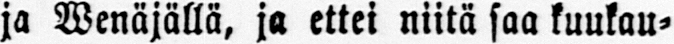ja Wenäjällä, ja ettei niitä saa kuukau-
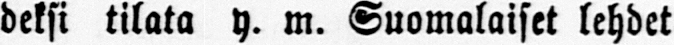deksi tilata y. m. Suomalaiset lehdet
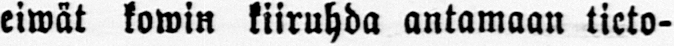eiwät kowin kiiruhda antamaan tieto-
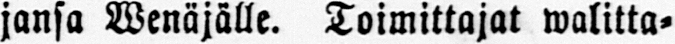jansa Wenäjälle. Toimittajat walitta-
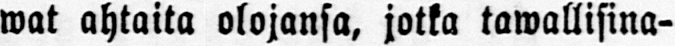wat ahtaita olojansa, jotka tawallisina-
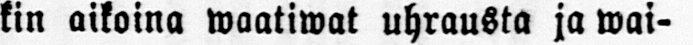kin aikoina waatiwat uhrausta ja wai-
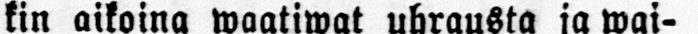waa, mutta nykyään owat erittäin ras-
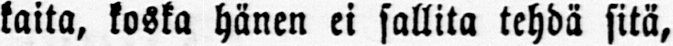kaita, koska hänen ei sallita tehdä sitä,
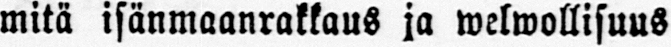mitä isänmaanrakkaus ja welwollisuus
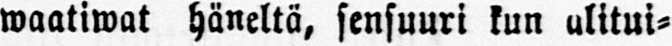waatiwat häneltä, sensuuri kun alitui-
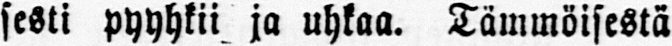sesti Pyyhkii ja uhkaa. Tämmöisestä
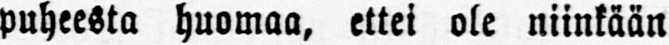puheesta huomaa, ettei ole niinkään
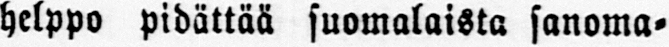helppo pidättää suomalaista sanoma-
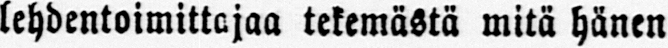lehdentoimittajaa tekemästä mitä hänen
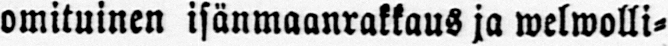omituinen isänmaanrakkaus ja welwolli-
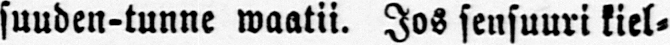suuden-tunne waatii. Jos sensuuri kiel-
